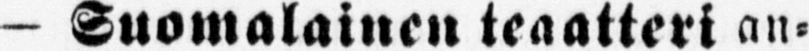- Suomalainen teaatteri an-
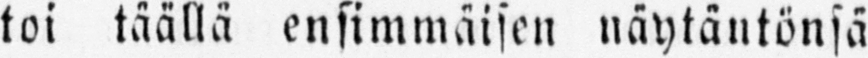toi täällä ensimmäisen näytäntönsä
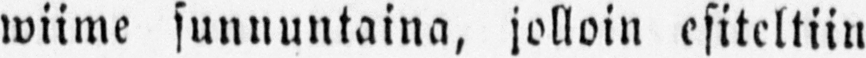wiime sunnuntaina, jolloin esiteltiin
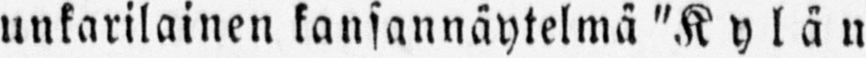unkarilainen kansannäytelmä "Kylän
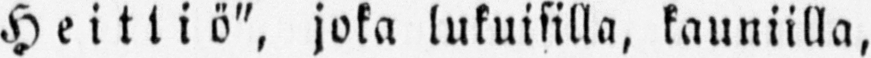Heittiö", joka lukuisilla, kauniilla,
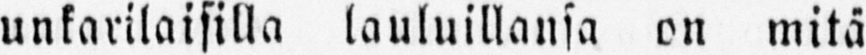unkarilaisilla lauluillansa on mitä
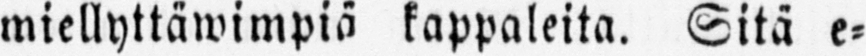miellyttäwimpiä kappaleita. Sitä e-
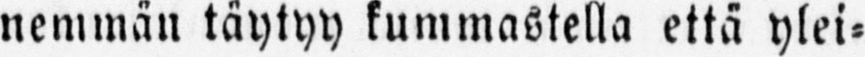nemmän täytyy kummastella että ylei-
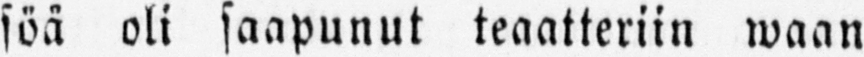söä oli saapunut teaatteriin waan
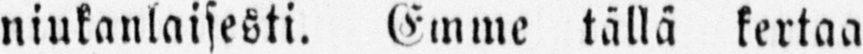niukanlaisesti, Emme tällä kertaa
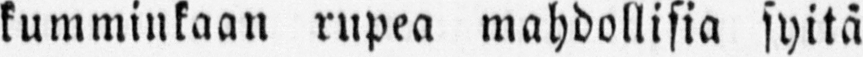kumminkaan rupea mahdollisia syitä
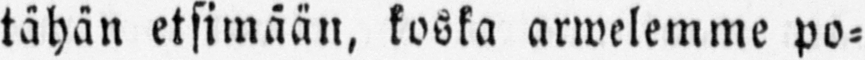tähän etsimään, koska arwelemme po-
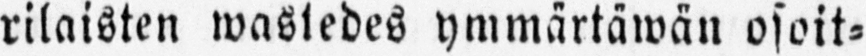rilaisten wastedes ymmärtäwän osoit-
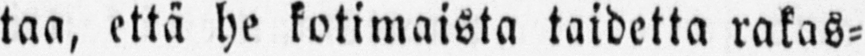taa, että he kotimaista taidetta rakas-
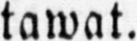tawat.
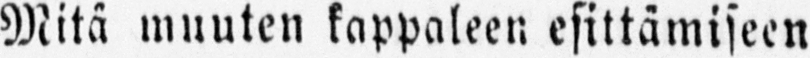Mitä muuten kappaleen esittämiseen
